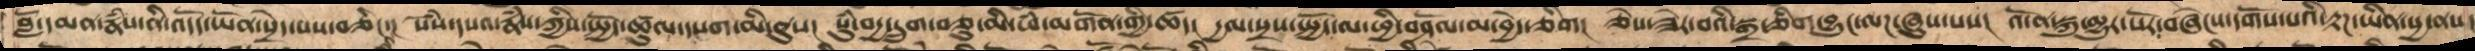བློ་དམན་རྣཾས་ནི་འདོད་ཡོན་སྲེད་པས་བཅིང་།  སེཾས་དཔའ་རྣཾས་ཀྱིས་སྤྱོད་ཚུལ་དཔག་མི་ནུས།  སུཾ་བདྱ་དྲུག་ཅུ་མི་ཕཾ་མགོན་གྱི་ཚད།  དྱལ་སྲས་སྤྱོད་ལ་ཕྱི་བཤོལ་མ་བྱེད་ཅིག།  ཅེས་ཟེར་བའི་སྒྲ་ཅིག་བྱུང་ལཌ་ཞུས་པས།  འོ་ན་སྐུ་མྱུར་པོར་བཞེངས་དགོས་པའི་རྟཌ་ཡིན་སྱ་ནས།
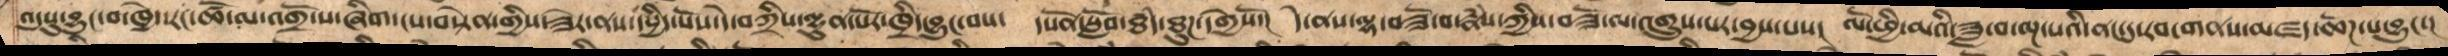འདུསུ་བྱུང་བ་ཁྱེད་རང་ཚོ་ལ་འགྲོ་ས་ཞིག་ངས་བསྟེན་གྱིས་ཟེར་ནས་དཔྱིད་སོས་དེ་བཀྲིས་ལྷུན་པོར་ཁྲིད་བྱུང་བས།  དཔོན་སློབ་ཐཾད་ཐུཌ་དགྱེསོ།  དེ་ནས་ལྷ་བཟོ་བ་རྣཾས་ཀྱིས་བཟོ་ལ་འགྲུས་པར་བྱས་པས།  ལོ་ཕྱི་མའི་ཟླ་བ་ལྔ་པའི་ནང་དུ་རབ་གནས་མཛད་ཆོཌ་པ་བྱུང་།
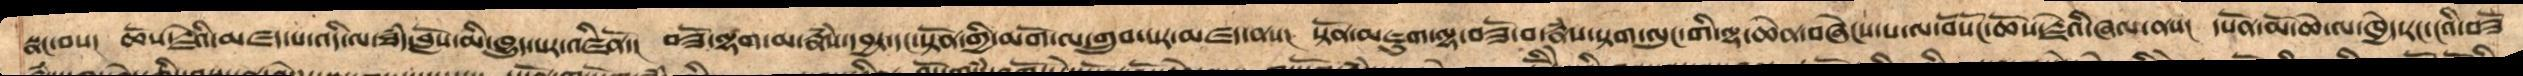སྣང་བས།  ཆོས་རྗེའི་མཛད་པ་འདི་ལ་ཐཾད་བློས་མི་ཁྱུད་པར་འཛིནོ།  བཟོ་ལྷག་མ་རྣཾས་དབྱར་དང་སྟོན་གྱི་མགོ་ལ་གྲུབ་པར་མཛད་ནས།  སྟོན་མཇུག་ལྷ་བཟོ་བ་རྣཾས་སྟག་ལུང་གི་ལྷ་ཆེན་བཞེང་པ་ལ་བོསོ།་ཆོས་རྗེའི་ཞལ་ནས།  དཔོན་མོ་ཆེ་ལ་ཁྱེད་རང་ངའི་བཟོ
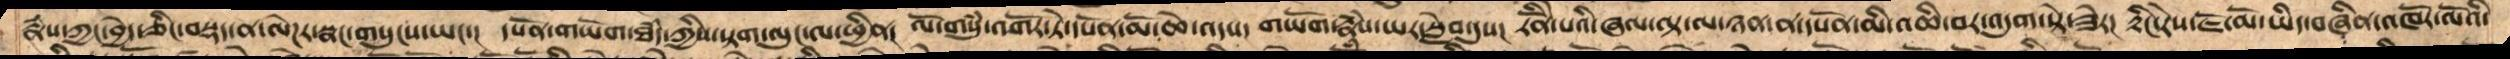རྣཾས་ཀྱང་བྱེད་ཅིང་བསྡད་ན་ལེཌར་སྣང་གསུངས་ཡང་།  དཔོན་གཡོག་ཐཾད་ཀྱིས་སྟག་ལུང་ལ་ཕྱིན།  ལོ་གསུཾ་འགོར་ཏེ་དཔོན་མོ་ཆེ་འདས།  གཡོག་རྣཾས་ཡར་སླེབ་དུས།  རིནོེ་པའི་ཞལ་ལྟ་ལ་ཉན་ན་དཔོན་མི་འཆི་བར་འདུག་སྟེ་ཟེར།  རྟིང་རེས་ཇོ་མོ་ཡིད་བཞིན་འཁོར་ལོའི་
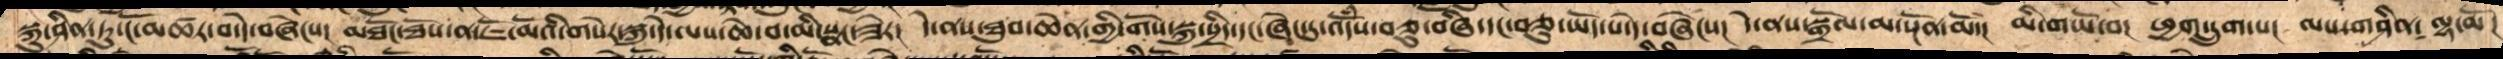སྐུ་ཤིན་ཏུ་ངོ་མཚར་བ་དེ་བཞེངས།  མཐོང་ཐོས་ན་ཇོ་མོའི་གསེར་སྐུ་ལ་དེ་ལས་ཆེ་བ་མི་སྣང་ཟེར།  དེ་ནས་ཐུབ་ཆེན་གྱི་གོས་སྐུ་སྲིད་དང་ཞེང་དུ་འདོཾས་བཅུ་བཞི་དང་བཅུ་ཡོད་པ་དེ་བཞེངས།  དེ་ནས་སྒྲོལ་མ་སྔོན་མོ།  མི་གཡོ་བ།  ཕྱག་དྲུག་པ།  ལས་གཤིན།  ལྷ་མོ།
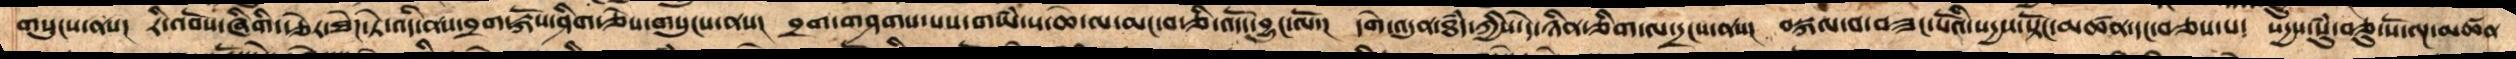གསུངས་ནས།  རི་འབོས་ཞིགི་རྩེར་ཐེཌ་ཏེ་འདི་ནས་བྲག་རྐོས་ཤིག་ཅེས་གསུངས་ནས།  བྲག་གཤགས་པས་གཡཾ་པ་ཚེ་ལ་མང་བ་ཅི་འདོད་བྱུང་ལོ་།  དགེ་འདུན་ཐཾད་ཀྱིས་དེ་ཉིན་གཅིག་ལ་དྲངས་ནས།  བསྐལ་བ་བཟང་པོའི་སདྱས་སྟོང་མཚན་དང་བཅས་པ།  སདྱས་སུཾ་ཅུ་སོ་ལྔ་མཚན་
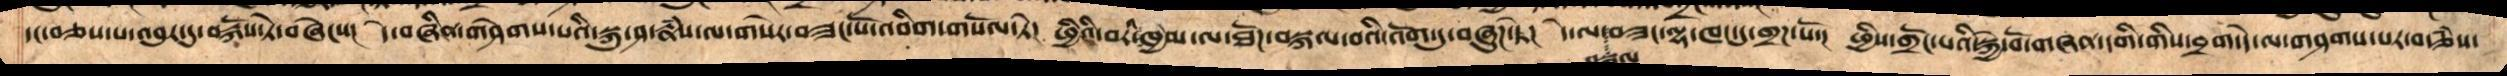དང་བཅས་པ་འབུར་དུ་བརྐོས་ཏེ་བཞེངས། དེ་བཞིན་གཤེགས་པའི་སྐུ་ཤ་རྣཾས་ལ་གསེར་བཟང་པོ་འབིག་གསོལ་ཏེ།  ཕྱིའི་བར་ཁྱམ་ལ་ཐོཌ་བསྐལ་བའི་འོག་དུ་བཞུཌ་ཏེ།  དེ་ལ་བསྐལ་བཟང་ལྷ་ཁང་དུ་གྲཌ་སོ་།  ཕྱིས་གྲོང་པའི་སྐྱེ་བོ་གཞན་དག་གིས་བྲག་དེ་ལ་གཤགས་པར་བརྩཾས་
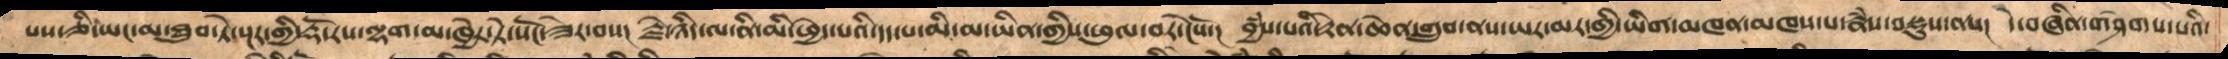པས་ཅི་ཡང་མ་ཐུབ་ཏེ་སྔར་གྱི་རྡོ་རས་ལྷག་མ་ཁྱེར་ཏེ་སོང་ཟེར་བས།  རྗེ་ཉིད་ལ་ནི་མི་ཕྱེད་པའི་དད་པ་མི་མ་ཡིན་གྱིས་ཕུལ་བར་ངེསོ།  བྱཾས་པའི་རྟེན་ཆེན་གྲུབ་ནས་ཡར་མར་ཀྱི་ཡིག་མཁན་མཁས་པ་རྣཾས་བསྡུས་ནས།  དེ་བཞིན་གཤེགས་པའི་
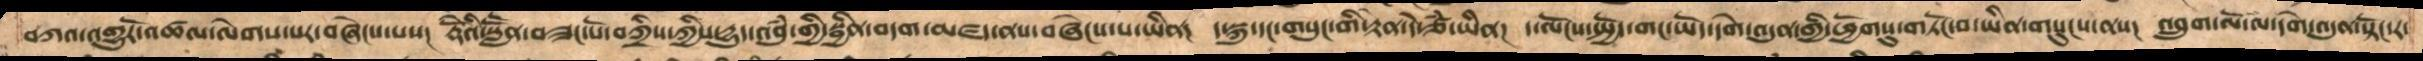བཀའ་འགྱུརོ་འཚལ་ལེགས་པར་བཞེངས་པས། རྡོེའི་སླཽན་བཟང་པོ་བཀྲིས་ཀྱིས་དྱུད་འབུཾ་གྱི་སྦྱིན་བདག་མཛད་ནས་བཞེངས་པ་ཡིན།  ད་སྐུ་དང་གསུང་གི་རྟེན་དེ་ཙཾ་ཡིན།  ད་ལོངས་སྤྱོད་གང་ཡོད་དགེ་འདུན་གྱི་ཕྱོགསུ་གཏོང་བ་ཡིན་གསུངས་ནས།  འབྲུག་ལོ་ལ་དགེ་འདུན་སྟོང་ར་
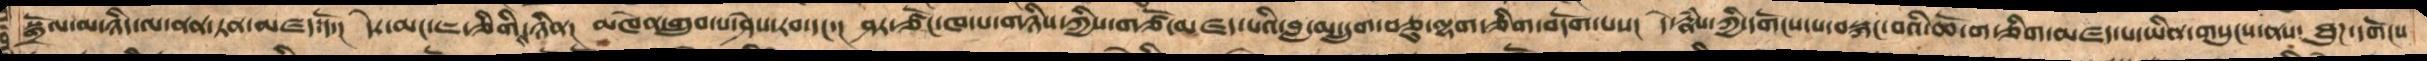སྒྲོལ་མ་ཉིད་ལ་ནན་ཏན་མཛད་དོ།  དེར་མང་ཇ་ཅིགིས་ཉིན། མཁེན་གྲུབ་པ་ཤེས་རབ་དང་། ཤར་ཙོང་ཁ་པ་གཉིས་ཀྱིས་གཙོ་མཛད་པའི་བླ་མ་དྲུག་ཅུ་ལྷག་ཅིག་བདོག་པས། དེ་རྣཾས་ཀྱི་དགོངས་པ་བསྐང་བའི་ཆོ་ག་ཅིག་མཛད་པ་ཡིན་གསུངས་ནས་ ཐུཌ་དགོངས་
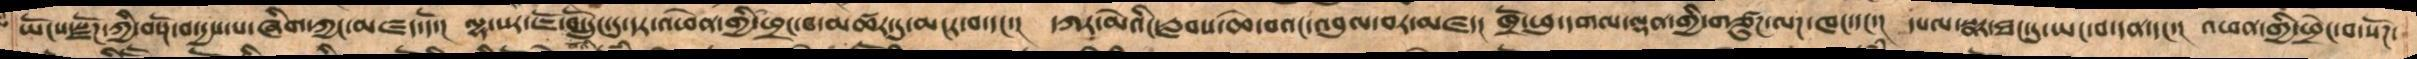ཡོངས་སྫོཌ་ཀྱི་བསྔོ་བ་དྱས་པ་ཞིག་ཀྱང་མཛད་དོ།  ལྷ་སར་ཇོ་བོ་དྲུང་དུ་དར་འཕེན་གྱི་ཕྲང་བ་མཚར་དུ་མངར་བ་དང་།  དཀར་མེའིང་རླབས་ཆེ་བའང་འབུལ་བར་མཛད།  ཁྲོ་ཕུ་དགལ་ལྡན་གྱི་གཙུཌ་ལཌ་ཁང་དང་།  དཔལ་སྣར་ཐང་དུ་ཡང་བ་དན་དང་། འཕན་གྱི་ཕྲེང་བ་སོཌ་
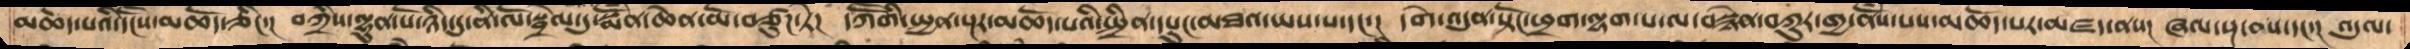མཆོད་པའི་དངོསོ་མཆོད་ཅིང་།  བཀྲིས་ལྷུན་པོ་ཉིད་དུ་ནི་ལོ་སྦྲེལ་དུ་སྨོཾན་ཆེན་མོ་བཙུཌ་ཏེ།  དཀཽགི་སྤྱན་སྔར་མཆོད་པའི་སྤྲིན་དཔུང་མཐའ་ཡས་པ་དང་།  དགེ་འདུན་སྟོང་ཕྲག་ལྷག་པ་ལ་བསྙེན་བཀུར་གྱ་ནོཾས་པས་མཆོད་པར་མཛད་ནས།  ཞལ་སྔ་ནས་དང་།  འདུལ་
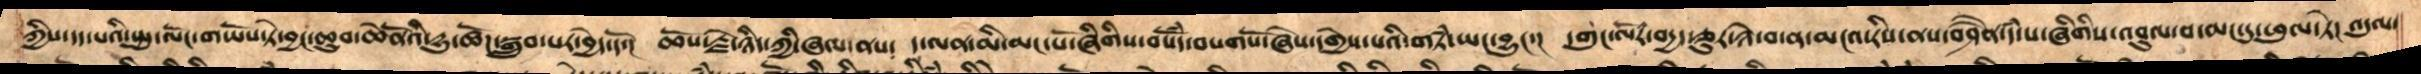ཀྱིས་དད་པའི་སྤུ་ལོང་གཡོས་ཏེ་བྱང་ཆུབ་ཆེནོའི་དྱུ་ཚོཌ་སྒྲུབ་པར་བྱེད་དོ།  ཆོས་རྗེ་ཉིད་ཀྱི་ཞལ་ནས།  ད་ལན་མི་མང་པོ་ཞིགིས་བསོཾད་བསགསོ་ཞེས་དགྱེས་པའི་གཏཾ་ཡང་བྱུང་།  དགུང་ལོ་བདྱད་ཅུར་ཉེ་བ་ན་མངའ་རིས་ནས་བཤཻན་དཾ་པ་ཞིགིས་འབུལ་བ་མང་དུ་ཕུལ་ཏེ།  འདུལ་
